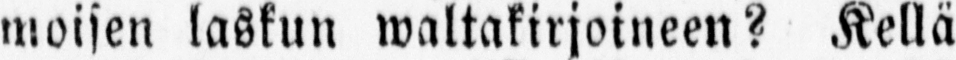moisen laskun waltakirjoineen? Kellä
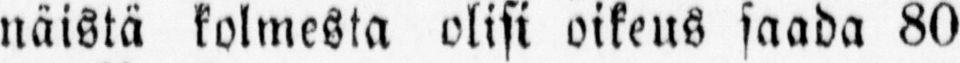näistä kolmesta olisi oikeus saada 80
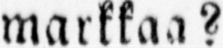markkaa?
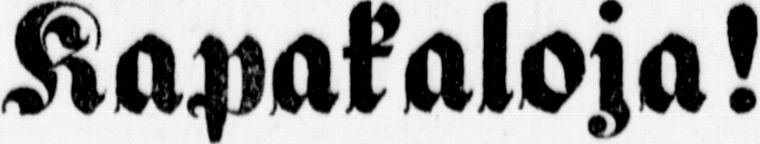Kapakaloja!
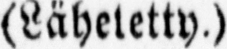(Lähetetty.)
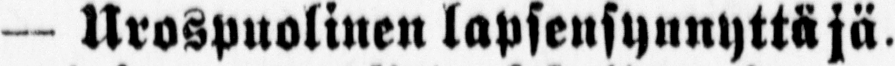— Urospuolinen lapsensynnyttäjä.
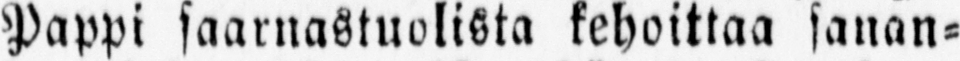Pappi saarnastuolista kehoittaa sanan-
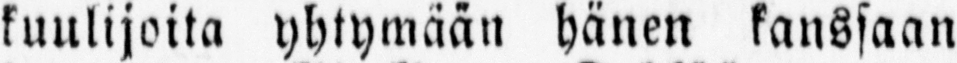kuulijoita yhtymään hänen kanssaan
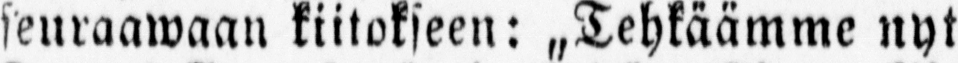seuraawaan kiitokseen: „Tehkäämme nyt
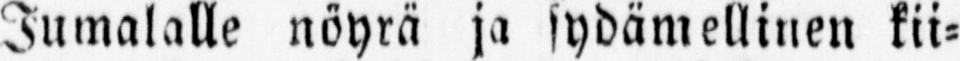Jumalalle nöyrä ja sydämellinen kii-
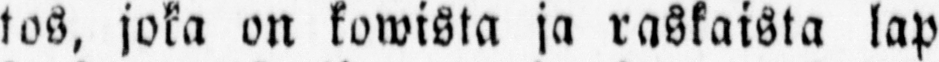tos, joka on kowista ja raskaista lap-
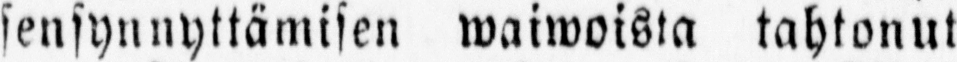sensynnyttämisen waiwoista tahtonut
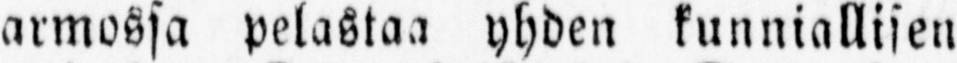armossa pelastaa yhden kunniallisen
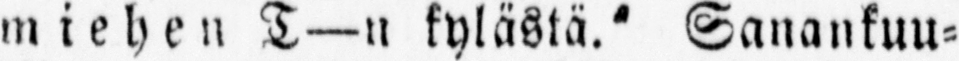miehen T —n kylästä." Sanankuu-
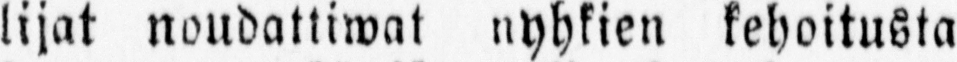lijat noudattiwat nyhkien kehoitusta
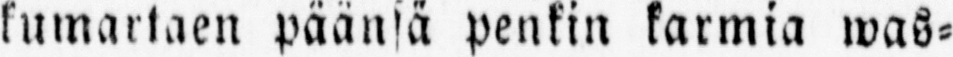kumartaen päänsä penkin karmia was-
